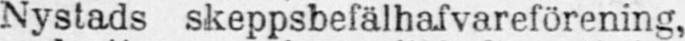Nystads skeppsbefälhafvareförening,
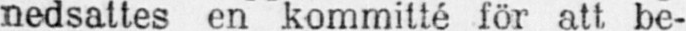nedsattes en kommitté för att, be-
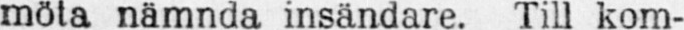möta nämnda insändare. Till kom-
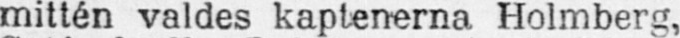mittén valdes kaptenerna Holmberg,
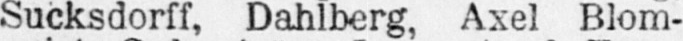Sucksdorff, Dahlberg, Axel Blom-
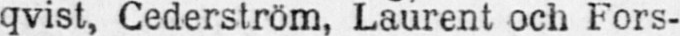qvist, Cederström, Laurent och Fors-
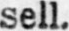sell.
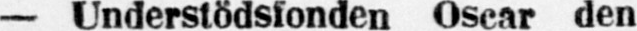— Understödsfonden Oscar den
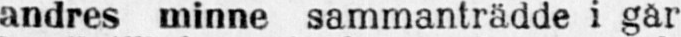andres minne sammanträdde i går
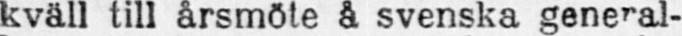kväll till årsmöte å svenska general-
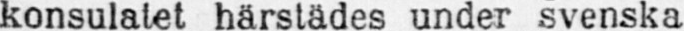konsulatet härstädes under svenska
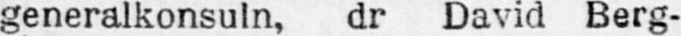generalkonsuln, dr David Berg-
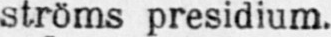ströms presidium.
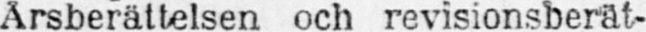Ärsberättelsen och revisionsberät-
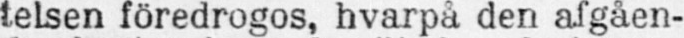telsen föredrogos, hvarpå den afgåen-
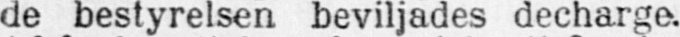de bestyrelsen beviljades decharge.
